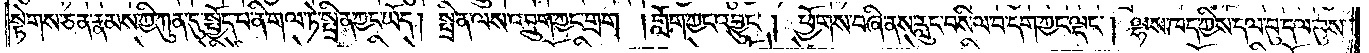སྟེགས་ཅན་རྣམས་ཀྱི་ཀུན་དུ་སྤྱོད་པ་ནི་གལ་ཏེ་སྤྲིན་ཀྱང་ཡོད། སྤྲིན་ལས་འབྲུག་ཀྱང་གྲག །གློག་ཀྱང་འབྱུང༌། ཕྱོགས་བཞི་ནས་རླུང་བསིལ་བ་དག་ཀྱང་ལྡང༌། ལྷས་ཁད་ཀྱིས་དལ་བུ་དལ་བུས་
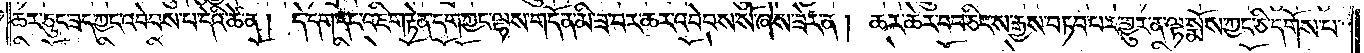ཆར་ཅུང་ཟད་ཀྱང་འབེབས་པ་དེའི་ཚེ་ན། དེ་དག་དང་འཇིག་རྟེན་དག་ཀྱང་ལྷས་གདོན་མི་ཟ་བར་ཆར་འབེབས་སོ་ཞེས་ཟེར་ན། ཆར་ཆེར་བབ་ཅིང་ས་རྒྱས་བཏབ་པར་གྱུར་ན་ལྟ་སྨོས་ཀྱང་ཅི་དགོས་པ་
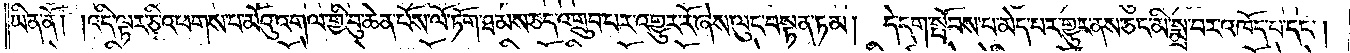ཡིན་ནོ། །འདི་ལྟར་ཅི་འཕགས་པ་མོའུ་འགལ་གྱི་བུ་ཆེན་པོས་ལོ་ཏོག་ཐམས་ཅད་འགྲུབ་པར་འགྱུར་རོ་ཞེས་ལུང་བསྟན་ཏམ། དེ་དག་སྤོབས་པ་མེད་པར་གྱུར་ནས་ཅང་མི་སྨྲ་བར་འཁོད་པ་དང༌།
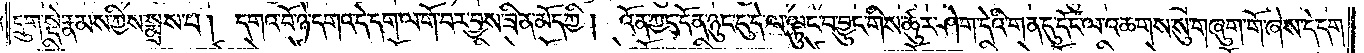དྲུག་སྡེ་རྣམས་ཀྱིས་སྨྲས་པ། དགའ་བོ་ཉེ་དགའ་དེ་དག་ལ་གོ་བར་བྱས་ཟིན་མོད་ཀྱི། འོན་ཀྱང་དོན་ཉུང་ངུ་དེ་ལ་ལྟུང་བ་བྱུང་གིས་ཚུར་ཤེག་དེའི་གན་དུ་དོང་ལ་འཆགས་སུ་གཞུག་གོ་ཞེས་དེ་དག་
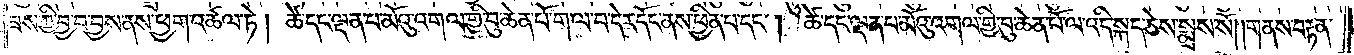ཟས་ཀྱི་བྱ་བ་བྱས་ནས་ཕྱག་འཚལ་ཏེ། ཚེ་དང་ལྡན་པ་མོའུ་འགལ་གྱི་བུ་ཆེན་པོ་ག་ལ་བ་དེར་དོང་ནས་ཕྱིན་པ་དང༌། ཚེ་དང་ལྡན་པ་མོའུ་འགལ་གྱི་བུ་ཆེན་པོ་ལ་འདི་སྐད་ཅེས་སྨྲས་སོ། །གནས་བརྟན་
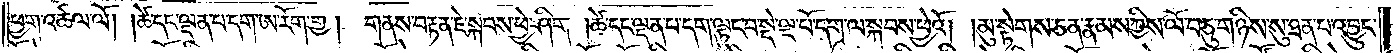ཕྱག་འཚལ་ལོ། །ཚེ་དང་ལྡན་པ་དག་ཨ་རོག་གྱ། གནས་བརྟན་ཇེ་སྐབས་ཕྱེ་ཤིག །ཚེ་དང་ལྡན་པ་དག་ལྟུང་བ་སྡེ་ལྔ་པོ་དག་ལ་སྐབས་ཕྱེའོ། །མུ་སྟེགས་ཅན་རྣམས་ཀྱིས་ལོ་བཅུ་གཉིས་སུ་ཐན་པ་འབྱུང་
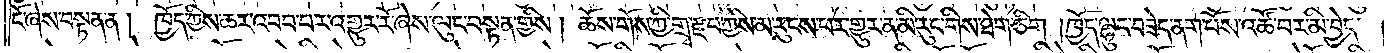ངོ་ཞེས་བསྟན་ན། ཁྱོད་ཀྱིས་ཆར་འབབ་པར་འགྱུར་རོ་ཞེས་ལུང་བསྟན་གྱིས། ཆོས་གོས་ཀྱི་གྲྭ་རྫབ་ཀྱིས་མ་རུངས་པར་གྱུར་ན་མི་རུང་གིས་ཐེག་ཅིག །ཁྱོད་ལྷུང་བཟེད་ནག་པོས་འཚོ་བར་མི་བྱེད་
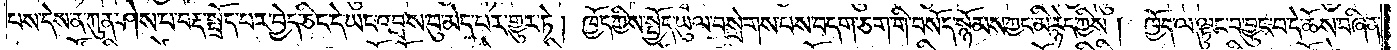པས་དེས་ན་ཀུན་ཤེས་པ་བརྡ་སྤྲོད་པར་བྱེད་ཅིང་དེ་ཡང་འབྲས་བུ་མེད་པར་གྱུར་ཏེ། ཁྱོད་ཀྱིས་སྤྱོད་ཡུལ་བསྲེགས་པས་བདག་ཅག་གི་བསོད་སྙོམས་ཀྱང་མི་རྙེད་ཀྱིས། ཁྱོད་ལ་ལྟུང་བ་བྱུང་བ་དེ་ཆོས་བཞིན་
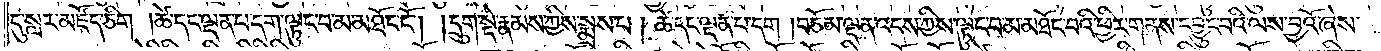དུ་སླར་མཛོད་ཅིག །ཚེ་དང་ལྡན་པ་དག་ལྟུང་བ་མ་མཐོང་ངོ༌། །དྲུག་སྡེ་རྣམས་ཀྱིས་སྨྲས་པ། ཚེ་དང་ལྡན་པ་དག །བཅོམ་ལྡན་འདས་ཀྱིས་ལྟུང་བ་མ་མཐོང་བའི་ཕྱིར་གནས་དབྱུང་བའི་ལས་བྱའོ་ཞེས་
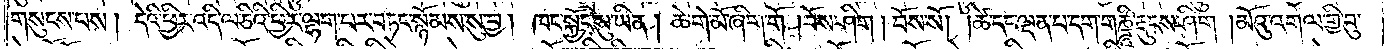གསུངས་པས། དེའི་ཕྱིར་འདི་ལ་ཅིའི་ཕྱིར་ལྷག་པར་བཏང་སྙོམས་སུ་བྱ། ཁང་སྐྱོང་སུ་ཡིན། ཆེ་གེ་མོ་ཞིག་གོ །བོས་ཤིག །བོས་སོ། །ཚེ་དང་ལྡན་པ་དག་གཎྜཱི་རྡུངས་ཤིག །མོའུ་འགལ་གྱི་བུ་
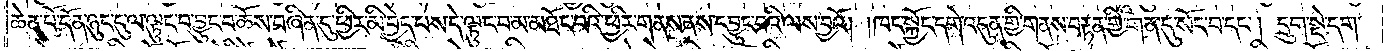ཆེན་པོ་དོན་ཉུང་ངུ་ལ་ལྟུང་བ་བྱུང་བ་ཆོས་བཞིན་དུ་ཕྱིར་མི་བྱེད་པས་དེ་ལྟུང་བ་མ་མཐོང་བའི་ཕྱིར་གནས་ནས་དབྱུང་བའི་ལས་བྱའོ། །ཁང་སྐྱོང་དགེ་འདུན་གྱི་གནས་བརྟན་གྱི་གན་དུ་སོང་བ་དང༌། དྲུག་སྡེ་དག་
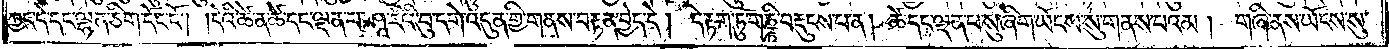ཀྱང་དེ་དང་ལྷན་ཅིག་དོང་ངོ༌། །དེའི་ཚེ་ན་ཚེ་དང་ལྡན་པ་ཤཱ་རིའི་བུ་དགེ་འདུན་གྱི་གནས་བརྟན་བྱེད་དེ། དེ་རྟག་ཏུ་གཎྜཱི་བརྡུངས་པ་ན། ཚེ་དང་ལྡན་པ་སུ་ཞིག་ཡོངས་སུ་གནས་པའམ། གཞི་ནས་ཡོངས་སུ་
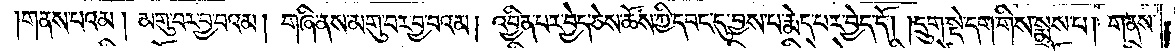།གནས་པའམ། མགུ་བར་བྱ་བའམ། གཞི་ནས་མགུ་བར་བྱ་བའམ། འབྱིན་པར་བྱེད་ཅེས་ཆོས་ཀྱི་དབང་དུ་བྱས་པ་རྨེད་པར་བྱེད་དོ། །དྲུག་སྡེ་དག་གིས་སྨྲས་པ། གནས་
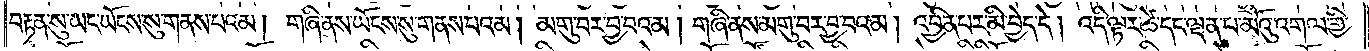བརྟན་སུ་ཡང་ཡོངས་སུ་གནས་པའམ། གཞི་ནས་ཡོངས་སུ་གནས་པའམ། མགུ་བར་བྱ་བའམ། གཞི་ནས་མགུ་བར་བྱ་བའམ། འབྱིན་པར་མི་བྱེད་དེ། འདི་ལྟར་ཚེ་དང་ལྡན་པ་མོའུ་འགལ་གྱི་
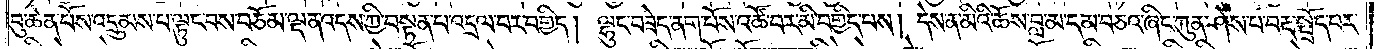བུ་ཆེན་པོས་འདྲུམས་པ་ལྟུང་བས་བཅོམ་ལྡན་འདས་ཀྱི་བསྟན་པ་འདྲལ་བར་བགྱིད། ལྷུང་བཟེད་ནག་པོས་འཚོ་བར་མི་བགྱིད་པས། དེས་ན་མིའི་ཆོས་བླ་མ་དམ་བཅའ་ཞིང་ཀུན་ཤེས་པ་བརྡ་སྤྲོད་པར་
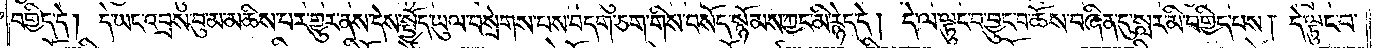བགྱིད་དེ། དེ་ཡང་འབྲས་བུ་མ་མཆིས་པར་གྱུར་ནས་དེས་སྤྱོད་ཡུལ་བསྲེགས་པས་བདག་ཅག་གིས་བསོད་སྙོམས་ཀྱང་མི་རྙེད་དེ། དེ་ལ་ལྟུང་བ་བྱུང་བ་ཆོས་བཞིན་དུ་སླར་མི་བགྱིད་པས། དེ་ལྟུང་བ་
